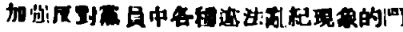加強反對黨員中各種違法亂紀現象的鬥
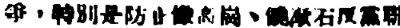爭，特別是防止像高崗、饒漱石反黨聯
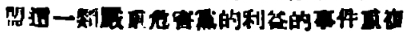盟這一類嚴重危害黨的利益的事件重複
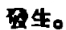發生。
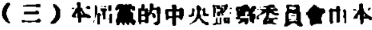（三）本屆黨的中央監察委員會由本
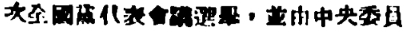次全國黨代表會議選舉，並有中央委員
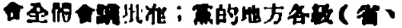會全體會議批准；黨的地方各級（省、
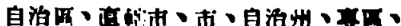自治區、直轄市、市、自治州、專區、
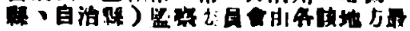縣、自治縣）監察委員會由各該地方最
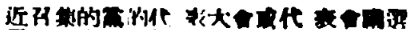近召集的黨的代 表大會或代 表會議選
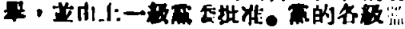舉，並由上一級黨委批准。黨的各級監
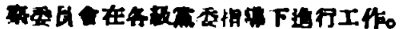察委員會在各級黨委指導下進行工作。
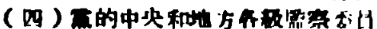（四）黨的中央和地方各級監察委員
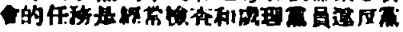會的任務是經常檢查和處理黨員違反黨
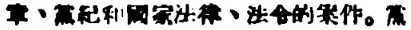章、黨紀和國家法律、法令的案件。黨
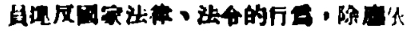員違反國家法律、法令的行爲，除應依
